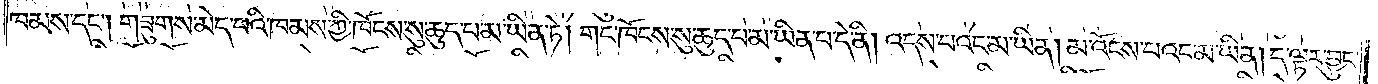ཁམས་དང༌། གཟུགས་མེད་པའི་ཁམས་ཀྱི་ཁོངས་སུ་ཆུད་པ་མ་ཡིན་ཏེ། གང་ཁོངས་སུ་ཆུད་པ་མ་ཡིན་པ་དེ་ནི། འདས་པའང་མ་ཡིན། མ་འོངས་པའང་མ་ཡིན། ད་ལྟར་བྱུང་
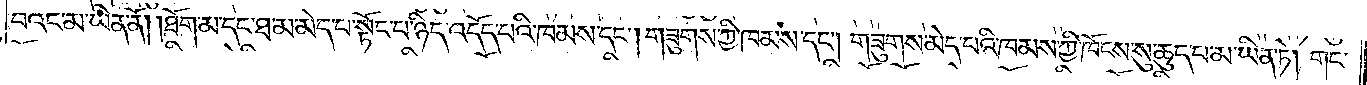བའང་མ་ཡིན་ནོ། །ཐོག་མ་དང་ཐ་མ་མེད་པ་སྟོང་པ་ཉིད་འདོད་པའི་ཁམས་དང༌། གཟུགས་ཀྱི་ཁམས་དང༌། གཟུགས་མེད་པའི་ཁམས་ཀྱི་ཁོངས་སུ་ཆུད་པ་མ་ཡིན་ཏེ། གང་
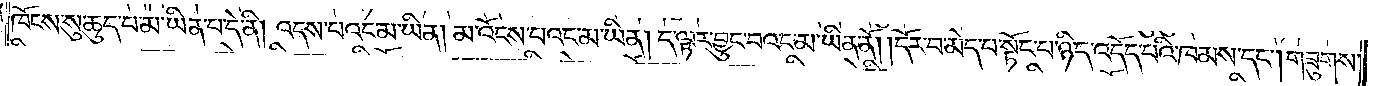ཁོངས་སུ་ཆུད་པ་མ་ཡིན་པ་དེ་ནི། འདས་པའང་མ་ཡིན། མ་འོངས་པའང་མ་ཡིན། ད་ལྟར་བྱུང་བའང་མ་ཡིན་ནོ། །དོར་བ་མེད་པ་སྟོང་པ་ཉིད་འདོད་པའི་ཁམས་དང༌། གཟུགས་
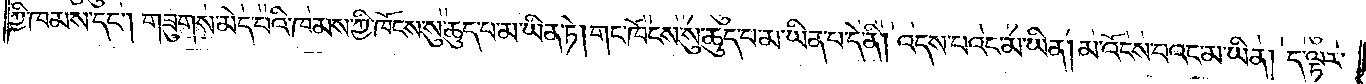ཀྱི་ཁམས་དང༌། གཟུགས་མེད་པའི་ཁམས་ཀྱི་ཁོངས་སུ་ཆུད་པ་མ་ཡིན་ཏེ། གང་ཁོངས་སུ་ཆུད་པ་མ་ཡིན་པ་དེ་ནི། འདས་པའང་མ་ཡིན། མ་འོངས་པའང་མ་ཡིན། ད་ལྟར་
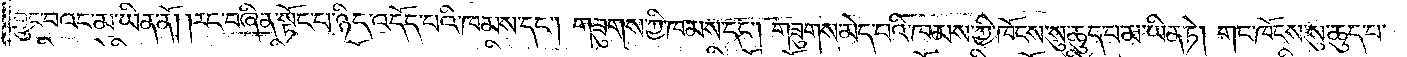བྱུང་བའང་མ་ཡིན་ནོ། །རང་བཞིན་སྟོང་པ་ཉིད་འདོད་པའི་ཁམས་དང༌། གཟུགས་ཀྱི་ཁམས་དང༌། གཟུགས་མེད་པའི་ཁམས་ཀྱི་ཁོངས་སུ་ཆུད་པ་མ་ཡིན་ཏེ། གང་ཁོངས་སུ་ཆུད་པ་
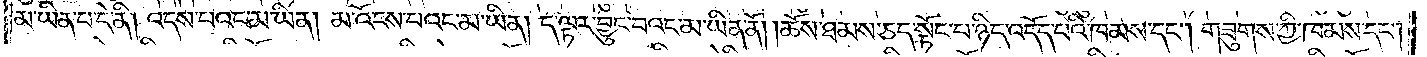མ་ཡིན་པ་དེ་ནི། འདས་པའང་མ་ཡིན། མ་འོངས་པའང་མ་ཡིན། ད་ལྟར་བྱུང་བའང་མ་ཡིན་ནོ། །ཆོས་ཐམས་ཅད་སྟོང་པ་ཉིད་འདོད་པའི་ཁམས་དང༌། གཟུགས་ཀྱི་ཁམས་དང༌།
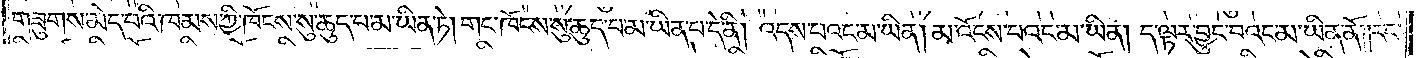གཟུགས་མེད་པའི་ཁམས་ཀྱི་ཁོངས་སུ་ཆུད་པ་མ་ཡིན་ཏེ། གང་ཁོངས་སུ་ཆུད་པ་མ་ཡིན་པ་དེ་ནི། འདས་པའང་མ་ཡིན། མ་འོངས་པའང་མ་ཡིན། ད་ལྟར་བྱུང་བའང་མ་ཡིན་ནོ། །རང་
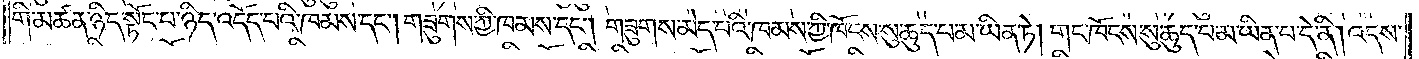གི་མཚན་ཉིད་སྟོང་པ་ཉིད་འདོད་པའི་ཁམས་དང༌། གཟུགས་ཀྱི་ཁམས་དང༌། གཟུགས་མེད་པའི་ཁམས་ཀྱི་ཁོངས་སུ་ཆུད་པ་མ་ཡིན་ཏེ། གང་ཁོངས་སུ་ཆུད་པ་མ་ཡིན་པ་དེ་ནི། འདས་
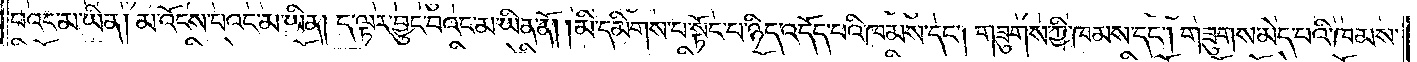པའང་མ་ཡིན། མ་འོངས་པའང་མ་ཡིན། ད་ལྟར་བྱུང་བའང་མ་ཡིན་ནོ། །མི་དམིགས་པ་སྟོང་པ་ཉིད་འདོད་པའི་ཁམས་དང༌། གཟུགས་ཀྱི་ཁམས་དང༌། གཟུགས་མེད་པའི་ཁམས་
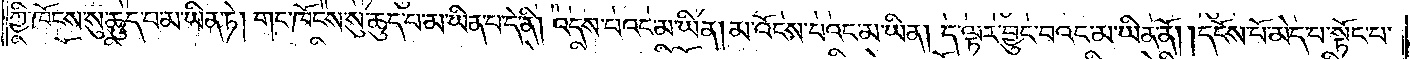ཀྱི་ཁོངས་སུ་ཆུད་པ་མ་ཡིན་ཏེ། གང་ཁོངས་སུ་ཆུད་པ་མ་ཡིན་པ་དེ་ནི། འདས་པའང་མ་ཡིན། མ་འོངས་པའང་མ་ཡིན། ད་ལྟར་བྱུང་བའང་མ་ཡིན་ནོ། །དངོས་པོ་མེད་པ་སྟོང་པ་
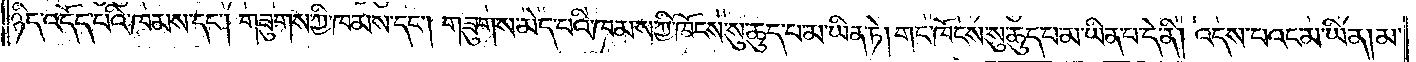ཉིད་འདོད་པའི་ཁམས་དང༌། གཟུགས་ཀྱི་ཁམས་དང༌། གཟུགས་མེད་པའི་ཁམས་ཀྱི་ཁོངས་སུ་ཆུད་པ་མ་ཡིན་ཏེ། གང་ཁོངས་སུ་ཆུད་པ་མ་ཡིན་པ་དེ་ནི། འདས་པའང་མ་ཡིན། མ་
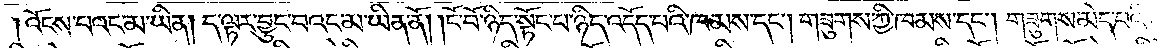འོངས་པའང་མ་ཡིན། ད་ལྟར་བྱུང་བའང་མ་ཡིན་ནོ། །ངོ་བོ་ཉིད་སྟོང་པ་ཉིད་འདོད་པའི་ཁམས་དང༌། གཟུགས་ཀྱི་ཁམས་དང༌། གཟུགས་མེད་པའི་
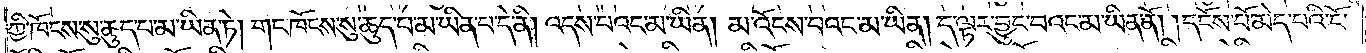ཀྱི་ཁོངས་སུ་ཆུད་པ་མ་ཡིན་ཏེ། གང་ཁོངས་སུ་ཆུད་པ་མ་ཡིན་པ་དེ་ནི། འདས་པའང་མ་ཡིན། མ་འོངས་པའང་མ་ཡིན། ད་ལྟར་བྱུང་བའང་མ་ཡིན་ནོ། །དངོས་པོ་མེད་པའི་ངོ་
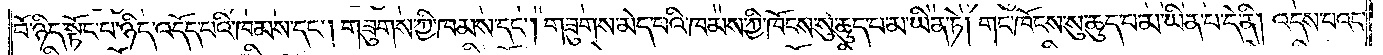བོ་ཉིད་སྟོང་པ་ཉིད་འདོད་པའི་ཁམས་དང༌། གཟུགས་ཀྱི་ཁམས་དང༌། གཟུགས་མེད་པའི་ཁམས་ཀྱི་ཁོངས་སུ་ཆུད་པ་མ་ཡིན་ཏེ། གང་ཁོངས་སུ་ཆུད་པ་མ་ཡིན་པ་དེ་ནི། འདས་པའང་
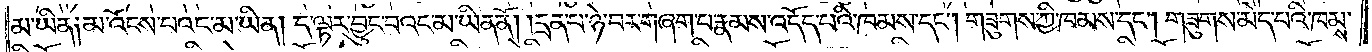མ་ཡིན༑ མ་འོངས་པའང་མ་ཡིན། ད་ལྟར་བྱུང་བའང་མ་ཡིན་ནོ། །དྲན་པ་ཉེ་བར་གཞག་པ་རྣམས་འདོད་པའི་ཁམས་དང༌། གཟུགས་ཀྱི་ཁམས་དང༌། གཟུགས་མེད་པའི་ཁམས་
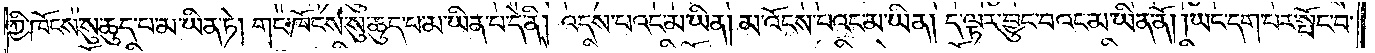ཀྱི་ཁོངས་སུ་ཆུད་པ་མ་ཡིན་ཏེ། གང་ཁོངས་སུ་ཆུད་པ་མ་ཡིན་པ་དེ་ནི། འདས་པའང་མ་ཡིན། མ་འོངས་པའང་མ་ཡིན། ད་ལྟར་བྱུང་བའང་མ་ཡིན་ནོ། །ཡང་དག་པར་སྤོང་བ་
